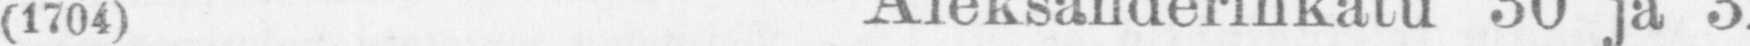(1704) Aleksanderinkatu 30 ja 32.
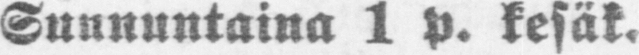Sunnuntaina 1 p. kesäk.
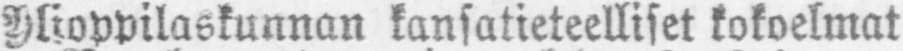Ylioppilaskunnan kansatieteelliset kokoelmat
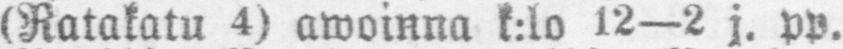(Ratakatu 4) awoinna k:lo 12—2 j. pp.
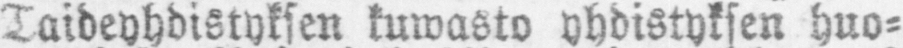Taideyhdistyksen kuwasto yhdistyksen huo-
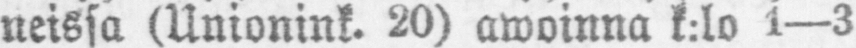neissa (Unionink. 20) awoinna k:lo 1-—3
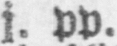j. pp.
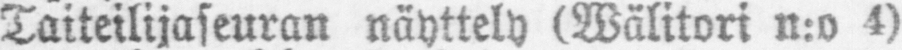Taiteilijaseuran näyttely (Wälitori n:o 4)
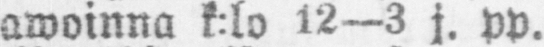awoinna k:lo 12—3 j. pp.
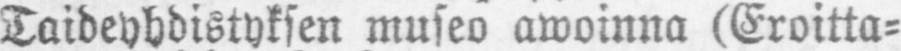Taideyhdistyksen museo awoinna (Eroitta-
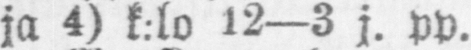ja 4) k.lo 12—3 j. pp.
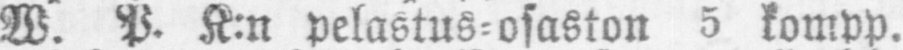W. P. K:n pelastus-osaston 5 kompp.
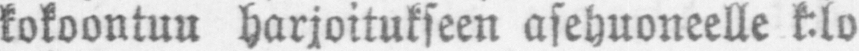kokoontuu harjoitukseen asehuoneelle K:lo
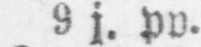9 j. pp.
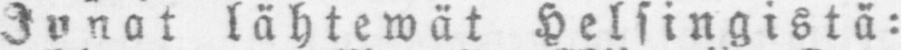Junat lähtewät Helsingistä-
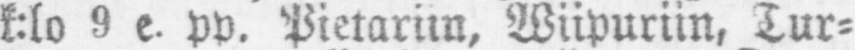k:lo 9 e. pp. Pietariin, Wiipuriin, Tur-
